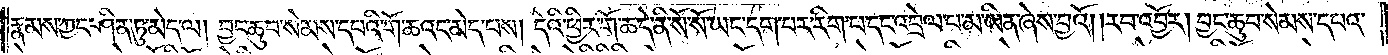རྣམས་ཀྱང་ཤིན་ཏུ་མེད་ལ། བྱང་ཆུབ་སེམས་དཔའི་གོ་ཆའང་མེད་པས། དེའི་ཕྱིར་གོ་ཆ་དེ་ནི་སོ་སོ་ཡང་དག་པར་རིག་པ་དང་འབྲེལ་པ་མ་ཡིན་ཞེས་བྱའོ། །རབ་འབྱོར། བྱང་ཆུབ་སེམས་དཔའ་
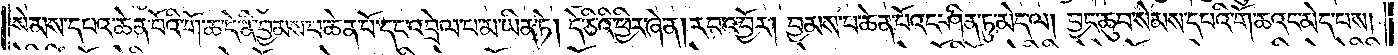སེམས་དཔའ་ཆེན་པོའི་གོ་ཆ་དེ་ནི་བྱམས་པ་ཆེན་པོ་དང་འབྲེལ་པ་མ་ཡིན་ཏེ། དེ་ཅིའི་ཕྱིར་ཞེ་ན། རབ་འབྱོར། བྱམས་པ་ཆེན་པོའང་ཤིན་ཏུ་མེད་ལ། བྱང་ཆུབ་སེམས་དཔའི་གོ་ཆའང་མེད་པས།
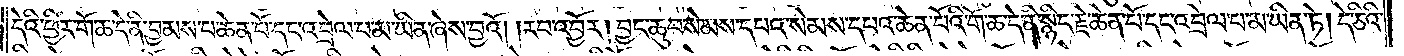དེའི་ཕྱིར་གོ་ཆ་དེ་ནི་བྱམས་པ་ཆེན་པོ་དང་འབྲེལ་པ་མ་ཡིན་ཞེས་བྱའོ། །རབ་འབྱོར། བྱང་ཆུབ་སེམས་དཔའ་སེམས་དཔའ་ཆེན་པོའི་གོ་ཆ་དེ་ནི་སྙིང་རྗེ་ཆེན་པོ་དང་འབྲེལ་པ་མ་ཡིན་ཏེ། དེ་ཅིའི་
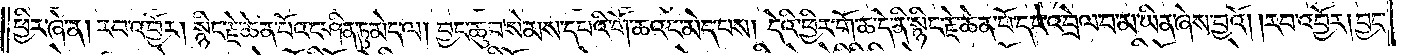ཕྱིར་ཞེ་ན། རབ་འབྱོར། སྙིང་རྗེ་ཆེན་པོའང་ཤིན་ཏུ་མེད་ལ། བྱང་ཆུབ་སེམས་དཔའ་གོ་ཆའང་མེད་པས། དེའི་ཕྱིར་གོ་ཆ་དེ་ནི་སྙིང་རྗེ་ཆེན་པོ་དང་འབྲེལ་པ་མ་ཡིན་ཞེས་བྱའོ། །རབ་འབྱོར། བྱང་
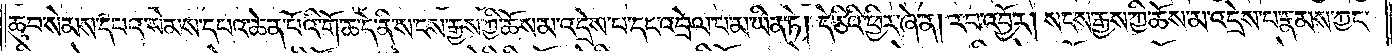ཆུབ་སེམས་དཔའ་སེམས་དཔའ་ཆེན་པོའི་གོ་ཆ་དེ་ནི་སངས་རྒྱས་ཀྱི་ཆོས་མ་འདྲེས་པ་དང་འབྲེལ་པ་མ་ཡིན་ཏེ། དེ་ཅིའི་ཕྱིར་ཞེ་ན། རབ་འབྱོར། སངས་རྒྱས་ཀྱི་ཆོས་མ་འདྲེས་པ་རྣམས་ཀྱང་
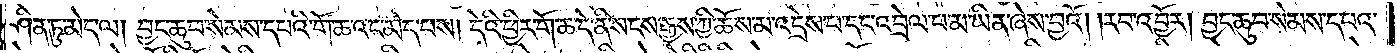ཤིན་ཏུ་མེད་ལ། བྱང་ཆུབ་སེམས་དཔའི་གོ་ཆའང་མེད་པས། དེའི་ཕྱིར་གོ་ཆ་དེ་ནི་སངས་རྒྱས་ཀྱི་ཆོས་མ་འདྲེས་པ་དང་འབྲེལ་པ་མ་ཡིན་ཞེས་བྱའོ། །རབ་འབྱོར། བྱང་ཆུབ་སེམས་དཔའ་
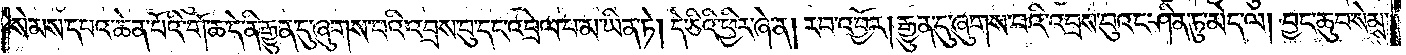སེམས་དཔའ་ཆེན་པོའི་གོ་ཆ་དེ་ནི་རྒྱུན་དུ་ཞུགས་པའི་འབྲས་བུ་དང་འབྲེལ་པ་མ་ཡིན་ཏེ། དེ་ཅིའི་ཕྱིར་ཞེ་ན། རབ་འབྱོར། རྒྱུན་དུ་ཞུགས་པའི་འབྲས་བུའང་ཤིན་ཏུ་མེད་ལ། བྱང་ཆུབ་སེམས་
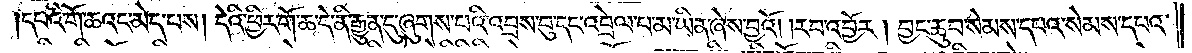དཔའི་གོ་ཆའང་མེད་པས། དེའི་ཕྱིར་གོ་ཆ་དེ་ནི་རྒྱུན་དུ་ཞུགས་པའི་འབྲས་བུ་དང་འབྲེལ་པ་མ་ཡིན་ཞེས་བྱའོ། །རབ་འབྱོར། བྱང་ཆུབ་སེམས་དཔའ་སེམས་དཔའ་
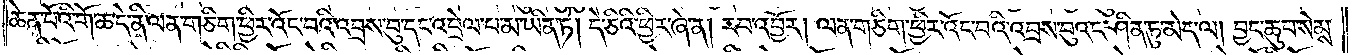ཆེན་པོའི་གོ་ཆ་དེ་ནི་ལན་ཅིག་ཕྱིར་འོང་བའི་འབྲས་བུ་དང་འབྲེལ་པ་མ་ཡིན་ཏེ། དེ་ཅིའི་ཕྱིར་ཞེ་ན། རབ་འབྱོར། ལན་གཅིག་ཕྱིར་འོང་བའི་འབྲས་བུའང་ཤིན་ཏུ་མེད་ལ། བྱང་ཆུབ་སེམས་
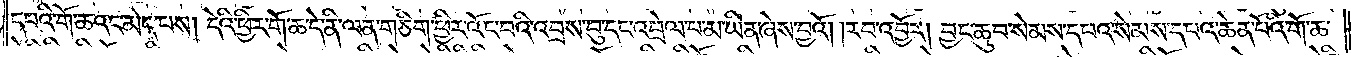དཔའི་གོ་ཆའང་མེད་པས། དེའི་ཕྱིར་གོ་ཆ་དེ་ནི་ལན་གཅིག་ཕྱིར་འོང་བའི་འབྲས་བུ་དང་འབྲེལ་པ་མ་ཡིན་ཞེས་བྱའོ། །རབ་འབྱོར། བྱང་ཆུབ་སེམས་དཔའ་སེམས་དཔའ་ཆེན་པོའི་གོ་ཆ་
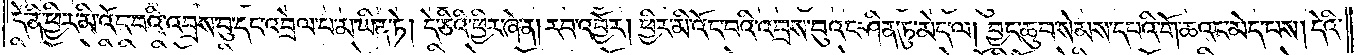དེ་ནི་ཕྱིར་མི་འོང་བའི་འབྲས་བུ་དང་འབྲེལ་པ་མ་ཡིན་ཏེ། དེ་ཅིའི་ཕྱིར་ཞེ་ན། རབ་འབྱོར། ཕྱིར་མི་འོང་བའི་འབྲས་བུའང་ཤིན་ཏུ་མེད་ལ། བྱང་ཆུབ་སེམས་དཔའ་གོ་ཆའང་མེད་པས། དེའི་
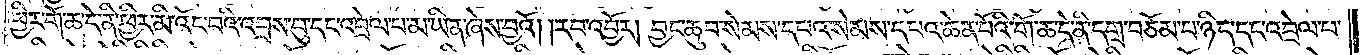ཕྱིར་གོ་ཆ་དེ་ནི་ཕྱིར་མི་འོང་བའི་འབྲས་བུ་དང་འབྲེལ་པ་མ་ཡིན་ཞེས་བྱའོ། །རབ་འབྱོར། བྱང་ཆུབ་སེམས་དཔའ་སེམས་དཔའ་ཆེན་པོའི་གོ་ཆ་དེ་ནི་དགྲ་བཅོམ་པ་ཉིད་དང་འབྲེལ་པ་
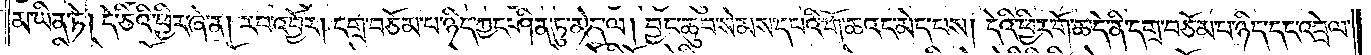མ་ཡིན་ཏེ། དེ་ཅིའི་ཕྱིར་ཞེ་ན། རབ་འབྱོར། དགྲ་བཅོམ་པ་ཉིད་ཀྱང་ཤིན་ཏུ་མེད་ལ། བྱང་ཆུབ་སེམས་དཔའི་གོ་ཆའང་མེད་པས། དེའི་ཕྱིར་གོ་ཆ་དེ་ནི་དགྲ་བཅོམ་པ་ཉིད་དང་འབྲེལ་
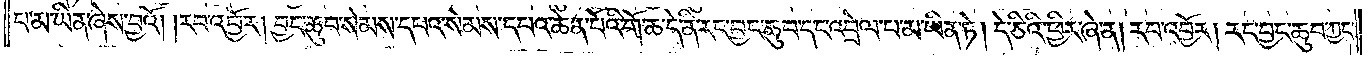པ་མ་ཡིན་ཞེས་བྱའོ། །རབ་འབྱོར། བྱང་ཆུབ་སེམས་དཔའ་སེམས་དཔའ་ཆེན་པོའི་གོ་ཆ་དེ་ནི་རང་བྱང་ཆུབ་དང་འབྲེལ་བ་མ་ཡིན་ཏེ། དེ་ཅིའི་ཕྱིར་ཞེ་ན། རབ་འབྱོར། རང་བྱང་ཆུབ་ཀྱང་
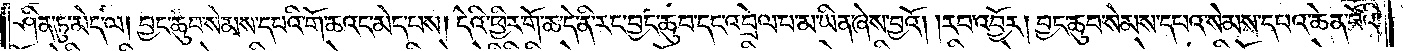ཤིན་ཏུ་མེད་ལ། བྱང་ཆུབ་སེམས་དཔའི་གོ་ཆའང་མེད་པས། དེའི་ཕྱིར་གོ་ཆ་དེ་ནི་རང་བྱང་ཆུབ་དང་འབྲེལ་བ་མ་ཡིན་ཞེས་བྱའོ། །རབ་འབྱོར། བྱང་ཆུབ་སེམས་དཔའ་སེམས་དཔའ་ཆེན་པོའི་
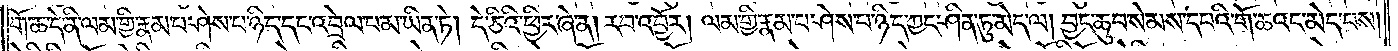གོ་ཆ་དེ་ནི་ལམ་གྱི་རྣམ་པ་ཤེས་པ་ཉིད་དང་འབྲེལ་པ་མ་ཡིན་ཏེ། དེ་ཅིའི་ཕྱིར་ཞེ་ན། རབ་འབྱོར། ལམ་གྱི་རྣམ་པར་ཤེས་པ་ཉིད་ཀྱང་ཤིན་ཏུ་མེད་ལ། བྱང་ཆུབ་སེམས་དཔའི་གོ་ཆའང་མེད་པས།
